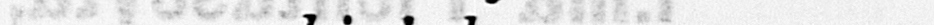Nimistämppeliä,
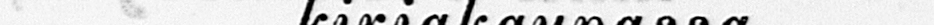saapi myöskin tilauksen mukaan
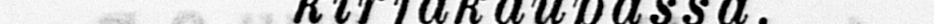WEILIN ja GÖÖS'in
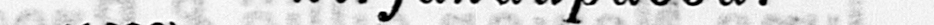kirjakaupassa.
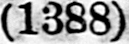(1388)
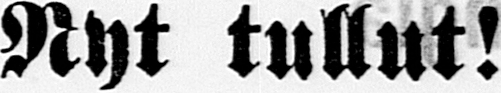Nyt tullut!
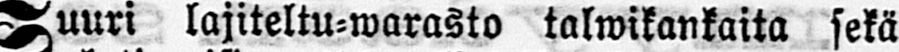Suuri lajiteltu-warasto talwikankaita sekä
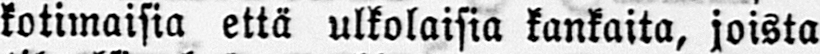kotimaisia että ulkolaisia kankaita, joista
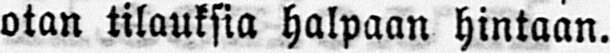otan tilauksia halpaan hintaan.
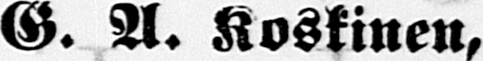G. A. Koskinen,
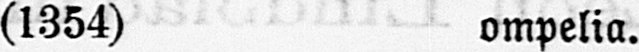(1354) ompelia.
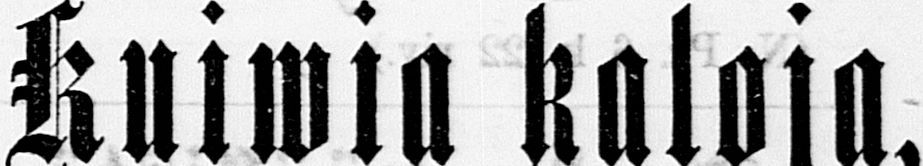Kuiwia kaloja,
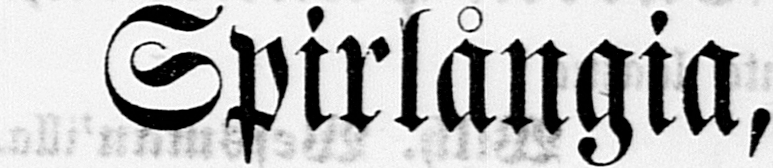Spirlångia,
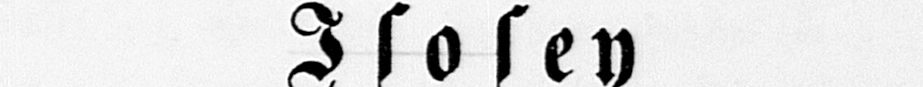Isosen
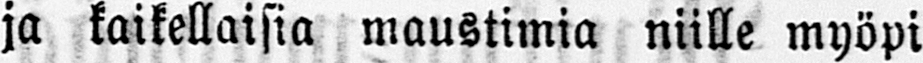ja kaikellaisia maustimia niille myöpi
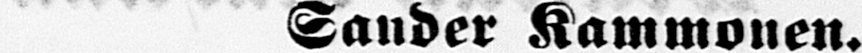Sander Kammonen.
